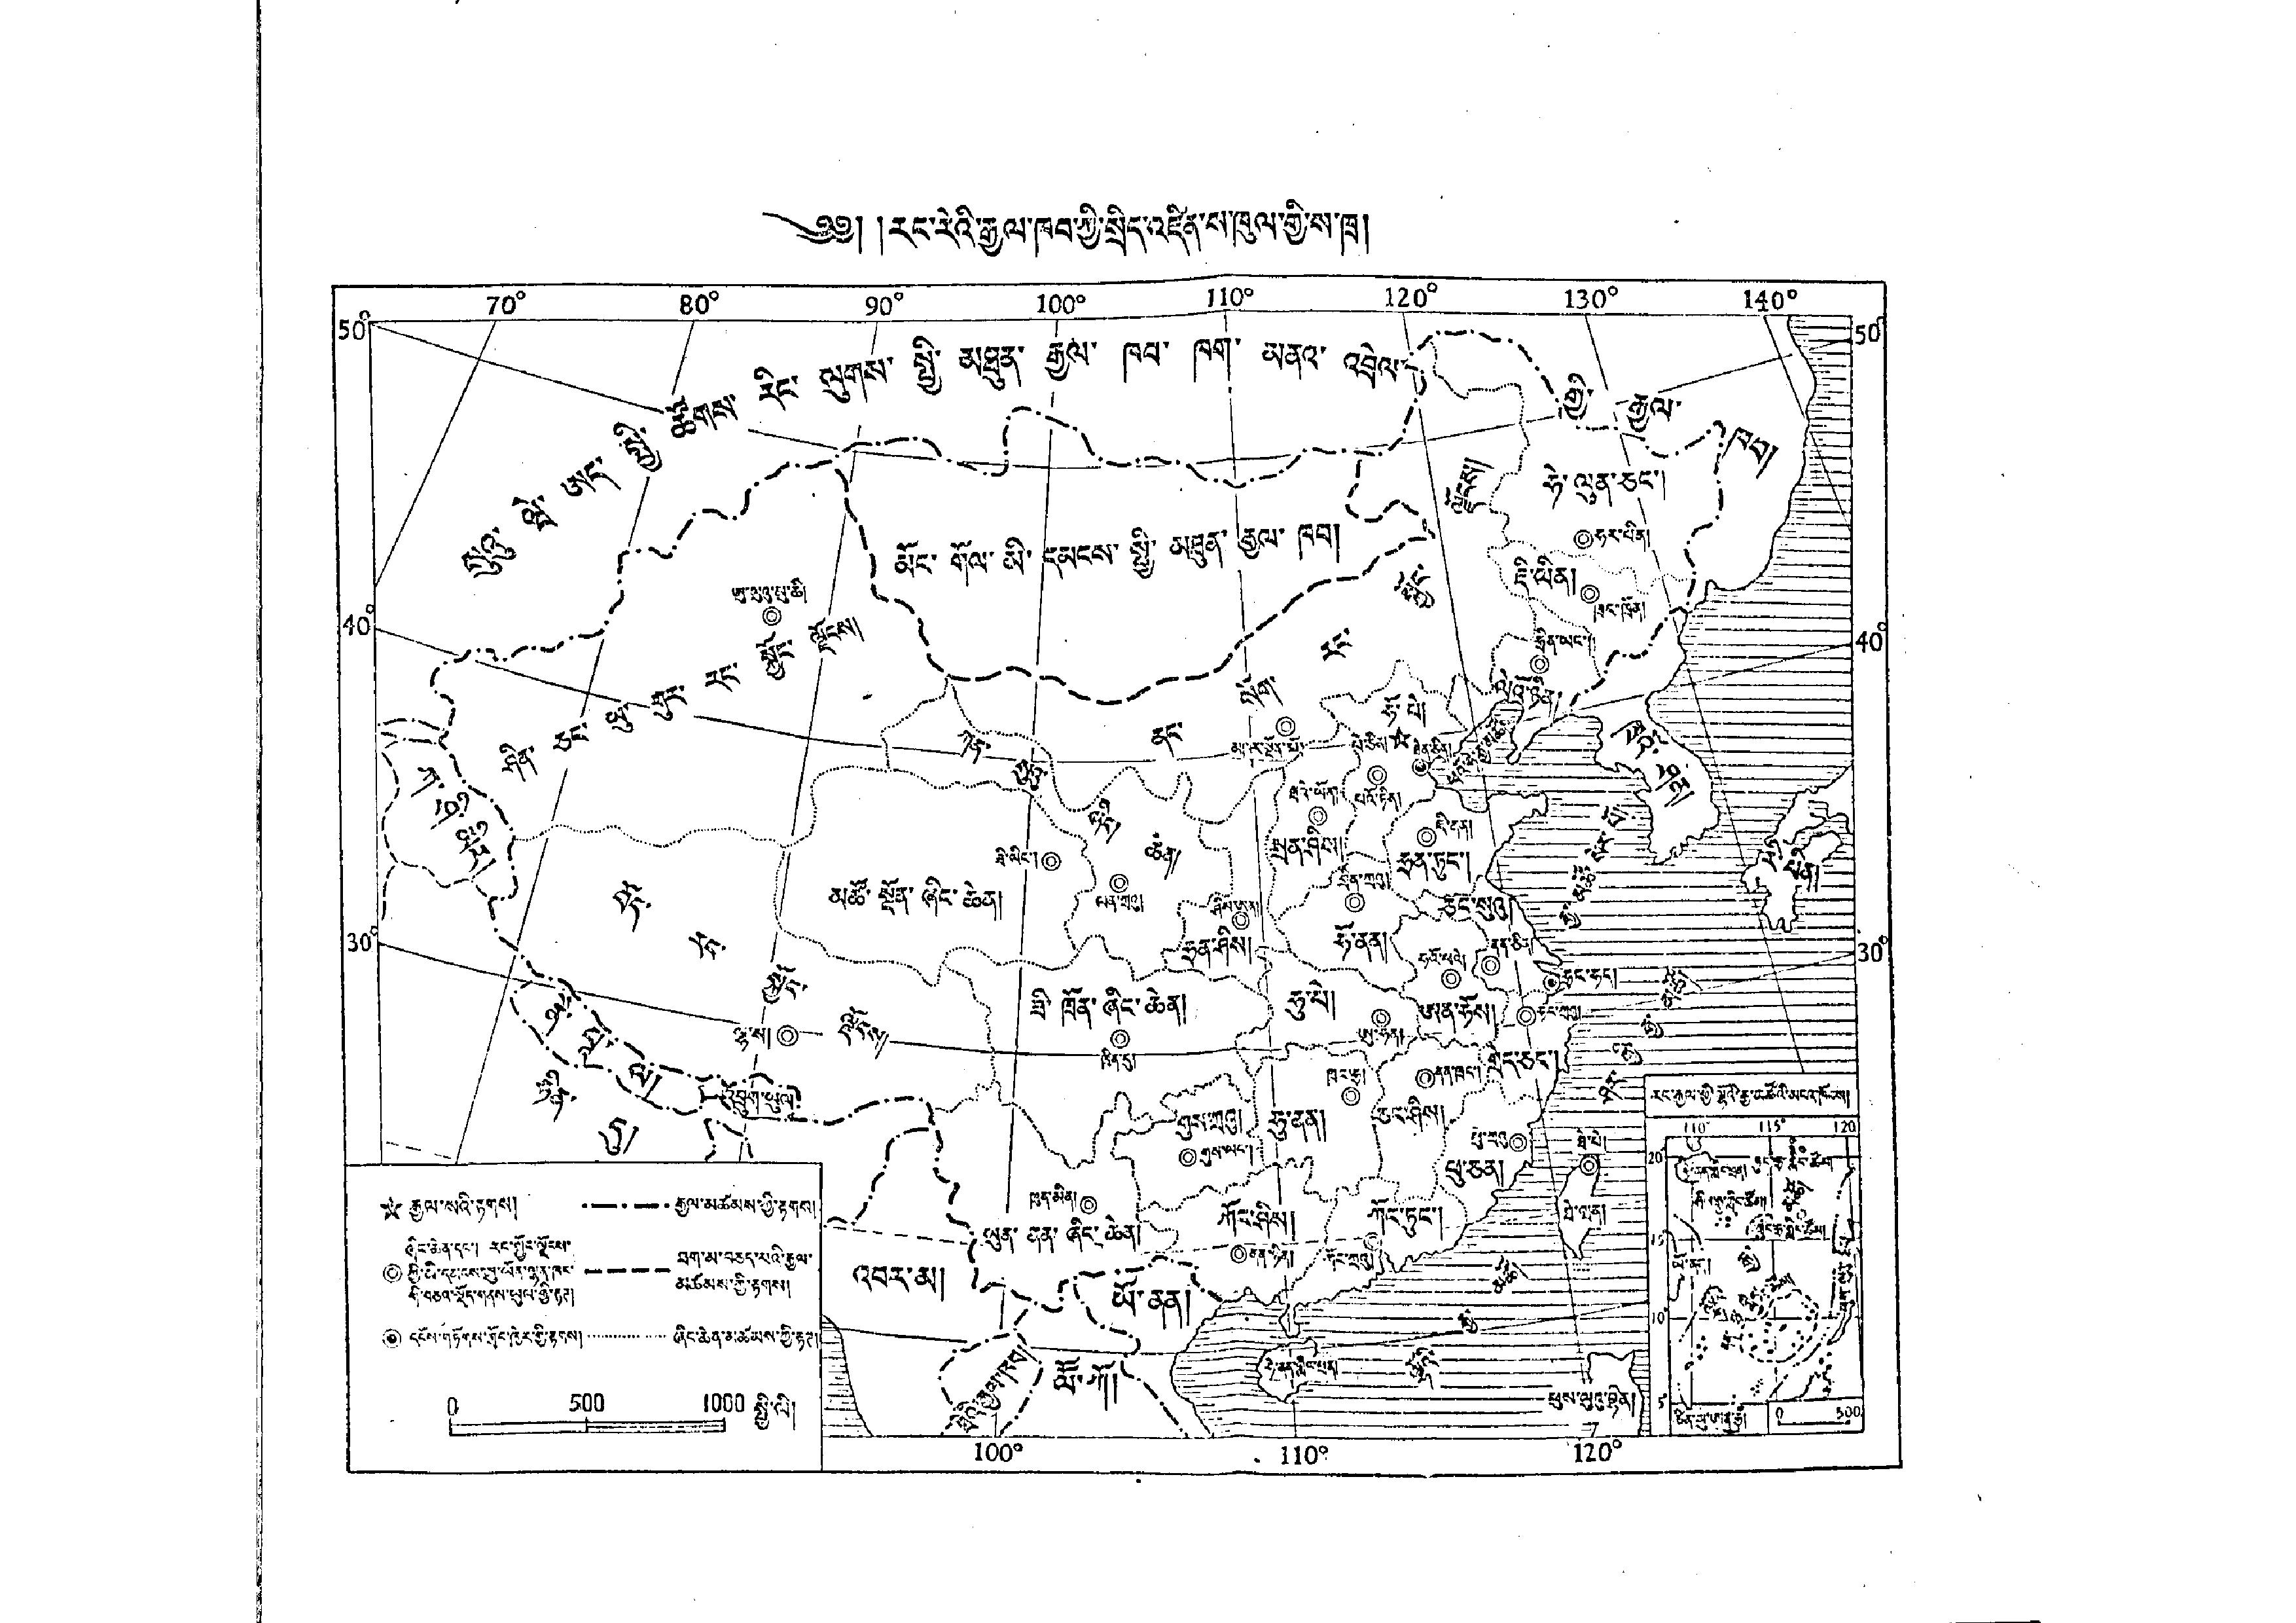༄༅། །རང་རེའི་རྒྱལ་ཁབ་ཀྱི་སྲིད་འཛིན་གཁུལ་གྱི་ས་ཁྲ།
70° 80° 90° 100° °110° 120° 130° 140°
50° 40° 30°
50° 40° 30°
100° 110° 120°
སུའུ་ཝེ་ཨད་སྤྱི་ཚོགས་རིང་ལུགས་སྤྱི་མཐུན་རྒྱལ་ཁབ་ཁག་མནའ་འབྲེལ་གྱི་རྒྱལ་ཁབ།
མོང་གོལ་མི་དམངས་སྤྱི་མཐུན་རྒྱལ་ཁབ།
ཤིན་ཅང་ཨུ་གུར་རང་སྐྱོང་ལྗོངས།
ཨུ་ལུའུ་མུ་ཆི།
ནང་སོག་རང་སྐྱོང་ལྗོངས།
ཧེ་ལུན་ཅང་།
ཧར་པིན།
ཇི་ལིན།
ཁྲང་ཁྲོན།
ཧྲིན་ཡང་།
ལེའོ་ཉིན།
ཧོ་པེ།
ཕའོ་ཧེ་རྒྱ་མཚོ།
ཁྲའོ་ཤན།
ཀན་སུའུ་ཤིང་ཆེན།
པེ་ཅིན།
མཁར་སྔོན་མོ།
ཐེན་ཅིན།
ཀ་ཤི་མིར།
ཐའེ་ཡོན།
པའོ་ཏིན།
རྒྱ་མཚོ་སེར་པོ།
ཇི་ནན།
སྲན་ཤིས།
ཟི་ལིང་།
ཧྲན་ཏུང་།
རི་པིན།
གྲིན་ཀྲུའུ།
མཚོ་སྔོན་ཞིང་ཆེན།
བོད་རང་སྐྱོང་ལྗོངས།
ལྷ་ས།
ལན་ཀྲུའུ།
ཤིས་ཨན།
ཅང་སུའུ།
ནན་ཅིན།
ཧོ་ནན།
ཧྲན་ཤིས།
ཧའོ་ཕའེ།
ཧྲང་ཧད།
ཤར་གྱི་རྒྱ་མཚོ།
ཧུ་པེ།
ཧང་ཀྲུའུ།
ཟི་ཁྲོན་ཞིང་ཆེན།
ཨན་ཧོས།
ཨུ་ཧན།
གྲེད་ཅང་།
ཁྲིན་དུ།
ནན་ཁྲང་།
ཁྲང་ཧྲ།
ནེ་པཱ་ལ།
ཧིན་དུ།
འབྲུག་ཡུལ།
ཅང་ཤིས།
གུས་ཀྲའུ།
ཧུ་ནན།
ཕུ་ཀྲའུ།
ཐེ་པེ།
གུས་ལང་།
ཕུ་ཅན།
ཁུན་མིན།
ཐེ་ཝན།
ཀོང་ཏུང་།
ཀོང་ཤིས།
ཡུན་ནན་ཞིང་ཆེན།
ནན་ཉིན།
ཀོང་ཀྲའུ།
འབར་མ།
ཡོ་ནན།
ཐེའི་རྒྱལ་ཁབ།
ལོོ་ཀོ།
ཧེ་ནན་གླིང་ཕྲན།
ལྷོའི་རྒྱ་མཚོ།
ཕུས་ལུའུ་བྷིན།
རང་རྒྱལ་གྱི་ལྷོའི་རྒྱ་མཚོའི་མངའ་ཁོངས།
110° 115° 120°
20° 15° 10° 5°
ཏུང་ཧྲ་གླིང་ཚོམ།
ཧེ་ནན་གླིང་ཕྲན།
ཤི་ཧྲ་གླིང་ཚོམ།
ཀྲུང་ཧྲ་གླིང་ཚོམ།
ཡོ་ནན།
ལྷོའི་རྒྱ་མཚོ།
ནན་ཧྲ་གླིང་ཚོམ།
ཙིན་མུ་ཨན་ཧྲ།
0 500
★ རྒྱལ་སའི་རྟགས། ‐ ― ‐ ― ‐ རྒྱལ་མཚོམས་ཀྱི་རྟགས།
ཞིང་ཆེན་དང་། རང་སྐྱོང་ལྗོངས་
◎ ཀྱི་མི་དམངས་ཨུ་ཡོན་ལྷན་ཁང་
གི་བཅའ་སྡོད་གནས་ཡུལ་གྱི་རྟཊ།
― ― ― ― བྲག་མ་བཅད་པའི་རྒྱལ་
མཚོམས་ཀྱི་རྟགས།
◉ དངོས་གཏོགས་གྲོང་ཁྱེར་གྱི་རྟགས།  ┈ ┈ ┈ ┈ ཞིང་ཆེན་མཚོམས་ཀྱི་རྟཊ།
0 500 1000
སྤྱི་ལི།
